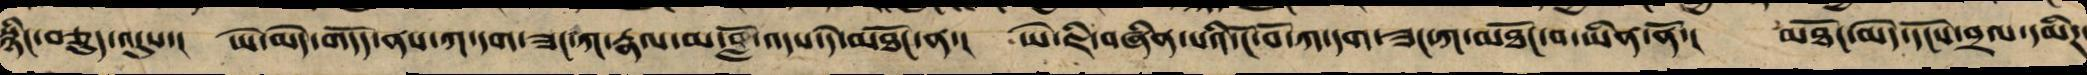སྙིང་བཅུད་འདུས་། ཡེ་མེད་གདོད་ནས་ཀ་དག་ཟང་ཀ་རྣལ་མ་བློ་འདས་དེ་མཐོང་ན་། ཡེ་ཇི་བཞིན་པའི་ངོ་བོ་ཀ་དག་ཟང་ཀ་མཐོང་བ་ཡིན་ནོ་། མཐོང་མེད་དངོས་བྲལ་དམིཌ་
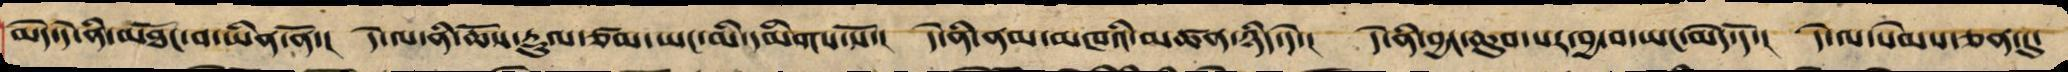མེད་དེ་ནི་མཐོང་བ་ཡིན་ནོ་། དེ་ལ་ནི་ཆོས་རྡུལ་ཙམ་ཡང་མི་དམིགས་སོ་། དེ་ནི་ནམ་མཁའི་མཚན་ཉིད་དེ་། དེ་ལ་ནི་བྱང་ཆུབ་པར་བྱ་བ་ཡང་མེད་དོ་། དེ་ལ་སེམས་ཅན་དུ་
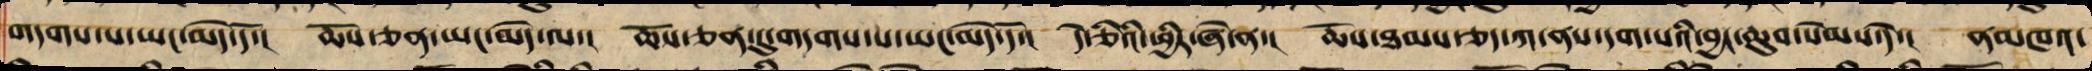གདགས་པ་ཡང་མེད་དོ་། ཆོས་ཅན་ཡང་མེད་ལ་། ཆོས་ཅན་དུ་གདགས་པ་ཡང་མེད་དོ་། དེ་ཅིའི་ཕྱིར་ཞེ་ན་། ཆོས་ཐམས་ཅད་ཀ་ནས་དག་པའི་བྱང་ཆུབ་སེམས་ཏེ་། ནམཁའ་
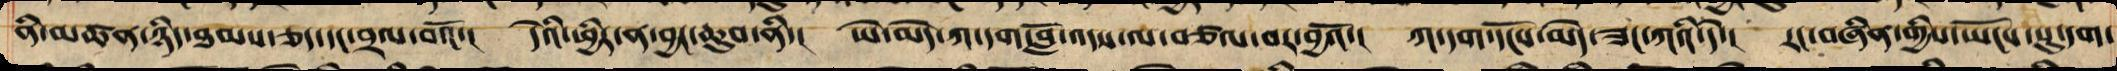ནི་མཚན་ཉིད་ཐམས་ཅད་དང་བྲལ་བའོ་། དེའི་ཕྱིར་ན་བྱང་ཆུབ་ནི་། ཡེ་མེད་ཀ་དག་བློ་འདས་ལས་བཙལ་བར་བྱའོ་། ཀ་དག་དངོས་མེད་ཟང་ཀའི་དེ་། རང་བཞིན་གྱིས་ཡོངས་སུ་དག་
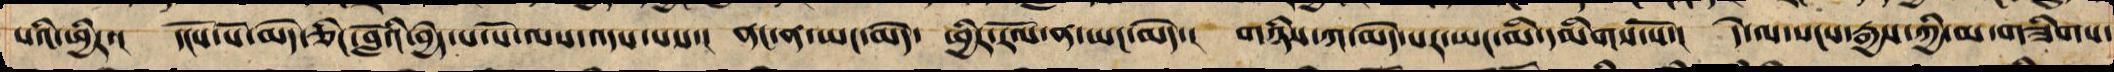པའི་ཕྱིར་། དངོས་པོ་མེད་ཅིང་བློའི་བྱེད་པ་པོ་ལས་འདས་པས་། ནང་ན་ཡང་མེད་ ཕྱི་རོལ་ན་ཡང་མེད་། གཉིས་ཀ་མེད་པར་ཡང་མི་དམིགས་སོ་། དེ་ལ་སངས་རྒྱས་ཀྱིས་མ་གཟིགས་
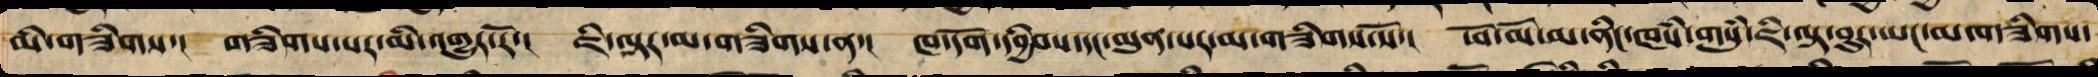མི་གཟིགས་། གཟིགས་པར་མི་འགྱུར་རོ་། ཇི་ལྟར་མ་གཟིགས་ན་། ཁ་དོག་དབྱིབས་དང་མུན་པར་མ་གཟིགས་སོ་། ཕོ་མོ་མ་ནིང་ཁཾས་གསུཾ་ཇི་ལྟ་བུར་ཡང་མ་གཟིགས་
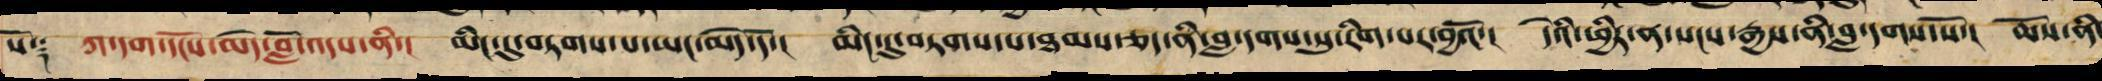སོ༑ ཀ་དག་དངོས་མེད་བློ་འདས་ནི་། མིང་དུ་བཏགས་པ་ཡང་མེད་དོ་། མིང་དུ་བཏགས་པ་ཐམས་ཅད་ནི་བླ་དྭགས་སུ་རིག་པར་བྱའོ་། དེའི་ཕྱིར་ན་སངས་རྒྱས་ནི་བླ་དྭགས་སོ་། ཆོས་ནི་
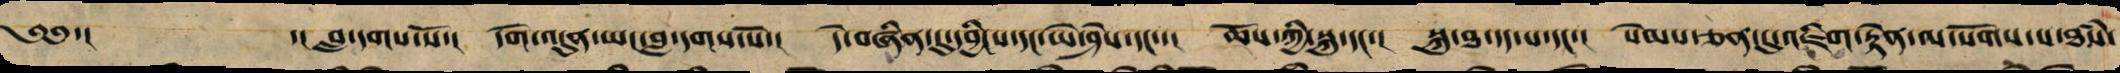༄༅་། ་།བླ་དགས་སོ་། དགེ་འདུན་ཡང་བླ་དགས་སོ་། དེ་བཞིན་དུ་དབྱིངས་དང་ཡེ་ཤེས་དང་་། ཆོས་ཀྱི་སྐུ་དང་། སྐུ་ཐ་དད་པ་དང་། སེམས་ཅན་དུ་འཇིག་རྟེན་ལ་སོགས་པ་ཐཾས་
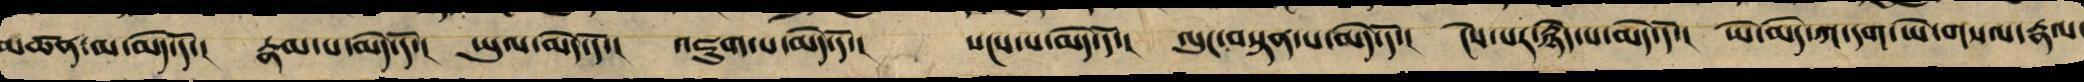མཚན་མ་མེད་དོ་། རྣམ་པ་མེད་དོ་། ཡུལ་མེད་དོ་། འཇུག་པ་མེད་དོ་། སངས་པ་མེད་དོ་། ལུང་བསྟན་པ་མེད་དོ་། ངེས་པར་རྙེད་པ་མེད་དོ་། ཡེ་མེད་ཀ་དག་ཡེ་གསལ་རྣལ་
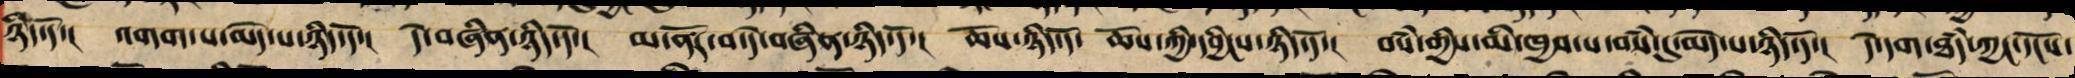ཉིད་དོ་། འགག་པ་མེད་པ་ཉིད་དོ་། དེ་བཞིན་ཉིད་དོ་། མ་ནོར་བ་དེ་བཞིན་ཉིད་དོ་། ཆོས་ཉིད་དོ་ ཆོས་ཀྱི་དབྱིངས་ཉིད་དོ་། བསཾ་གྱིས་མི་ཁྱབ་པ་བསཾ་དུ་མེད་པ་ཉིད་དོ་། དེ་དག་ཐཾད་ཀྱང་དངོས་
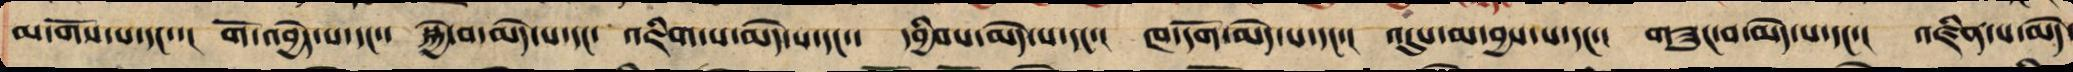མ་གོས་པ་དང་་། གོ་འབྱེད་པ་དང་ སྐྱེ་བ་མེད་པ་དང་ འཇིག་པ་མེད་པ་དང་ དབྱིབས་མེད་པ་དང་ ཁ་དོག་མེད་པ་དང་ འདུས་མ་བྱས་པ་དང་ གཟུང་བ་མེད་པ་དང་། འཛིན་པ་མེད་
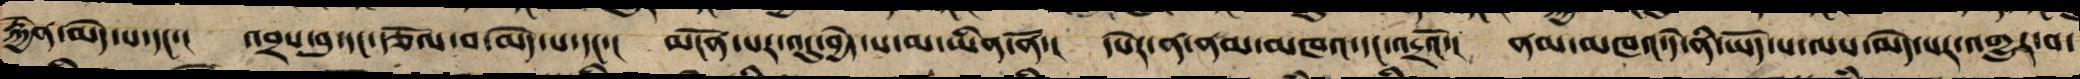རྐྱེན་མེད་པ་དང་་། འབྲས་བུ་དང་རྩོལ་བ་མེད་པ་དང་། མངོན་པར་འདུ་བྱེད་པ་མ་ཡིན་ནོ་། དཔེར་ན་ནམ་མཁའ་དང་འདྲའོ་། ནམ་མཁའ་དེ་ནི་ཡོད་པ་ལས་མེད་པར་འགྱུར་བ་
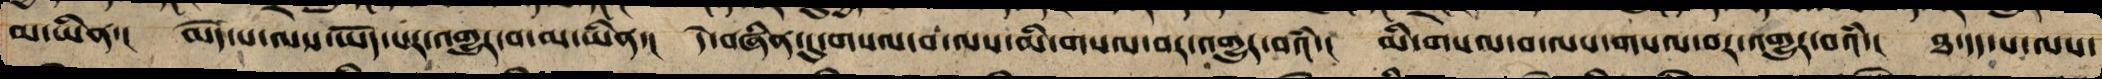མ་ཡིན་། མེད་པ་ལས་ཡོད་པར་འགྱུར་བ་མ་ཡིན་། དེ་བཞིན་དུ་གསལ་བ་ལས་མི་གསལ་བར་འགྱུར་བའཾ་། མི་གསལ་བ་ལས་གསལ་བར་འགྱུར་བའཾ་། ཐ་དད་པ་ལས་
